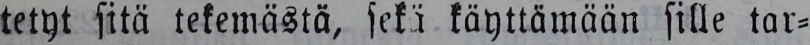tetyt sitä tekemästä, sekä käyttämään sille tar-
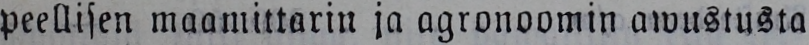peellisen maamittarin ja agronoomin awustusta
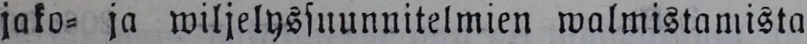jako- ja wiljelyssnunnitelmien walmistamista
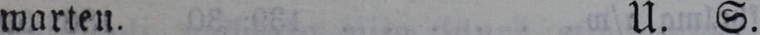warten. U. S.
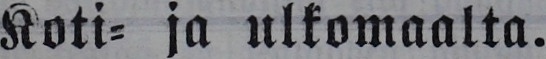Koti- ja ulkomaalta.
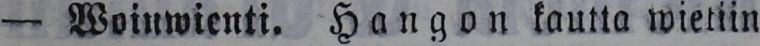— Woinwienti. Hangon kautta wietiin
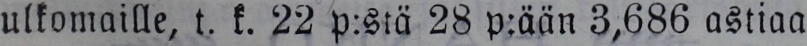ulkomaille, t. k. 22 p:stä 28 p:ään 3,686 astiaa
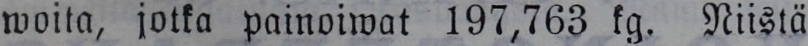woita, jotka painoiwat 197,763 kg. Niistä
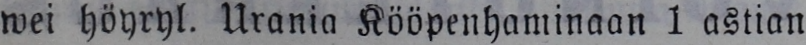wei höyryl. Urania Kööpenhaminaan 1 astian
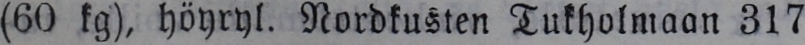(60 kg), höyryl. Nordkusten Tukholmaan 317
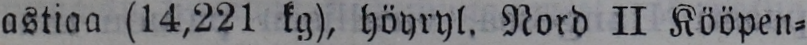astiaa (14,221 kg), höyryl. Nord II Kööpen-
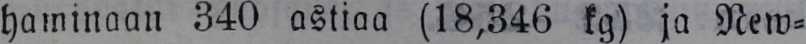haminaan 340 astiaa (18,346 kg) ja New-
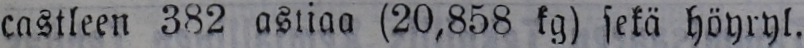castleen 382 astiaa (20,858 kg) sekä höyryl.
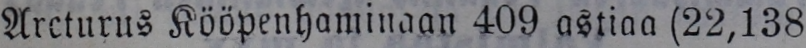Arcturus Kööpenhaminaan 409 astiaa (22,138
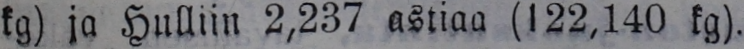kg) ja Halliin 2,237 astiaa (122,140 kg).
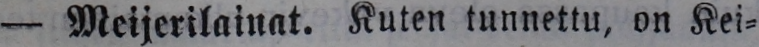— Meijerilainat. Kuten tunnettu, on Kei-
